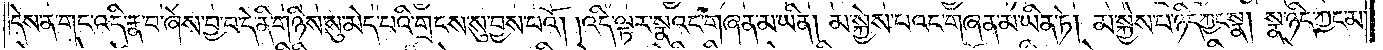དེས་ན། གང་འདི་རྣ་བ་ཞེས་བྱ་བ་དེ་ནི་གཉིས་སུ་མེད་པའི་གྲངས་སུ་བྱས་པའོ། །འདི་ལྟར་སྣའང་གཞན་མ་ཡིན། མ་སྐྱེས་པའང་གཞན་མ་ཡིན་ཏེ། མ་སྐྱེས་པ་ཉིད་ཀྱང་སྣ། སྣ་ཉིད་ཀྱང་མ་
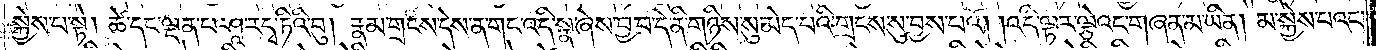སྐྱེས་པ་སྟེ། ཚེ་དང་ལྡན་པ་ཤཱ་ར་དྭ་ཏིའི་བུ། རྣམ་གྲངས་དེས་ན་གང་འདི་སྣ་ཞེས་བྱ་བ་དེ་ནི་གཉིས་སུ་མེད་པའི་གྲངས་སུ་བྱས་པའོ། །འདི་ལྟར་ལྕེའང་གཞན་མ་ཡིན། མ་སྐྱེས་པའང་
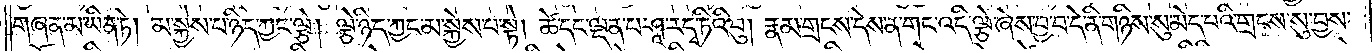གཞན་མ་ཡིན་ཏེ། མ་སྐྱེས་པ་ཉིད་ཀྱང་ལྕེ། ལྕེ་ཉིད་ཀྱང་མ་སྐྱེས་པ་སྟེ། ཚེ་དང་ལྡན་པ་ཤཱ་ར་དྭ་ཏིའི་བུ། རྣམ་གྲངས་དེས་ན་གང་འདི་ལྕེ་ཞེས་བྱ་བ་དེ་ནི་གཉིས་སུ་མེད་པའི་གྲངས་སུ་བྱས་
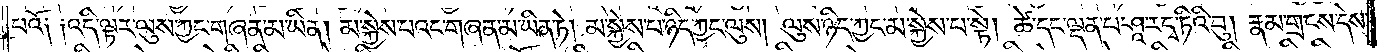པའོ༏ ༏འདི་ལྟར་ལུས་ཀྱང་གཞན་མ་ཡིན། མ་སྐྱེས་པའང་གཞན་མ་ཡིན་ཏེ། མ་སྐྱེས་པ་ཉིད་ཀྱང་ལུས། ལུས་ཉིད་ཀྱང་མ་སྐྱེས་པ་སྟེ། ཚེ་དང་ལྡན་པ་ཤཱ་ར་དྭ་ཏིའི་བུ། རྣམ་གྲངས་དེས་
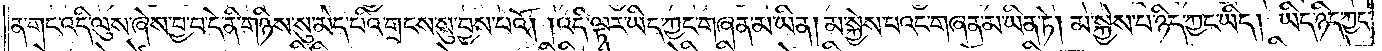ན་གང་འདི་ལུས་ཞེས་བྱ་བ་དེ་ནི་གཉིས་སུ་མེད་པའི་གྲངས་སུ་བྱས་པའོ། །འདི་ལྟར་ཡིད་ཀྱང་གཞན་མ་ཡིན། མ་སྐྱེས་པའང་གཞན་མ་ཡིན་ཏེ། མ་སྐྱེས་པ་ཉིད་ཀྱང་ཡིད། ཡིད་ཉིད་ཀྱང་
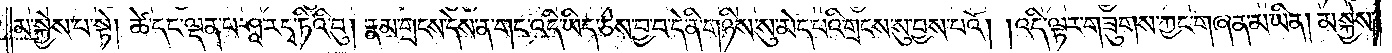མ་སྐྱེས་པ་སྟེ། ཚེ་དང་ལྡན་པ་ཤཱ་ར་དྭ་ཏིའི་བུ། རྣམ་གྲངས་དེས་ན་གང་འདི་ཡིད་ཅེས་བྱ་བ་དེ་ནི་གཉིས་སུ་མེད་པའི་གྲངས་སུ་བྱས་པའོ། །འདི་ལྟར་གཟུགས་ཀྱང་གཞན་མ་ཡིན། མ་སྐྱེས་
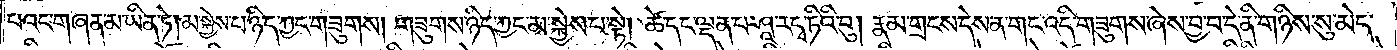པའང་གཞན་མ་ཡིན་ཏེ། མ་སྐྱེས་པ་ཉིད་ཀྱང་གཟུགས། གཟུགས་ཉིད་ཀྱང་མ་སྐྱེས་པ་སྟེ། ཚེ་དང་ལྡན་པ་ཤཱ་ར་དྭ་ཏིའི་བུ། རྣམ་གྲངས་དེས་ན་གང་འདི་གཟུགས་ཞེས་བྱ་བ་དེ་ནི་གཉིས་སུ་མེད་
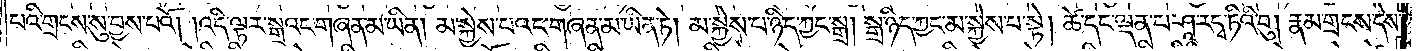པའི་གྲངས་སུ་བྱས་པའོ། འདི་ལྟར་སྒྲའང་གཞན་མ་ཡིན། མ་སྐྱེས་པའང་གཞན་མ་ཡིན་ཏེ། མ་སྐྱེས་པ་ཉིད་ཀྱང་སྒྲ། སྒྲ་ཉིད་ཀྱང་མ་སྐྱེས་པ་སྟེ། ཚེ་དང་ལྡན་པ་ཤཱ་ར་དྭ་ཏིའི་བུ། རྣམ་གྲངས་དེས་
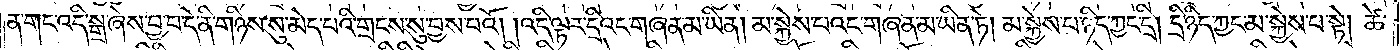ན་གང་འདི་སྒྲ་ཞེས་བྱ་བ་དེ་ནི་གཉིས་སུ་མེད་པའི་གྲངས་སུ་བྱས་པའོ། །འདི་ལྟར་དྲིའང་གཞན་མ་ཡིན། མ་སྐྱེས་པའང་གཞན་མ་ཡིན་ཏེ། མ་སྐྱེས་པ་ཉིད་ཀྱང་དྲི། དྲི་ཉིད་ཀྱང་མ་སྐྱེས་པ་སྟེ། ཚེ་
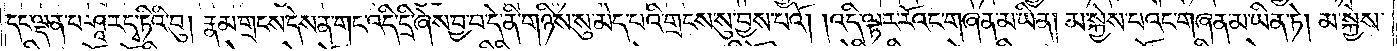དང་ལྡན་པ་ཤཱ་ར་དྭ་ཏིའི་བུ། རྣམ་གྲངས་དེས་ན་གང་འདི་དྲི་ཞེས་བྱ་བ་དེ་ནི་གཉིས་སུ་མེད་པའི་གྲངས་སུ་བྱས་པའོ། །འདི་ལྟར་རོའང་གཞན་མ་ཡིན། མ་སྐྱེས་པའང་གཞན་མ་ཡིན་ཏེ། མ་སྐྱེས་
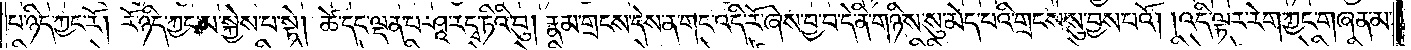པ་ཉིད་ཀྱང་རོ། རོ་ཉིད་ཀྱང་མ་སྐྱེས་པ་སྟེ། ཚེ་དང་ལྡན་པ་ཤཱ་ར་དྭ་ཏིའི་བུ། རྣམ་གྲངས་དེས་ན་གང་འདི་རོ་ཞེས་བྱ་བ་དེ་ནི་གཉིས་སུ་མེད་པའི་གྲངས་སུ་བྱས་པའོ། །འདི་ལྟར་རེག་ཀྱང་གཞན་མ་
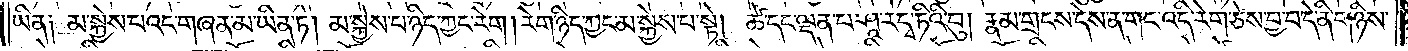ཡིན༏ མ་སྐྱེས་པའང་གཞན་མ་ཡིན་ཏེ། མ་སྐྱེས་པ་ཉིད་ཀྱང་རེག། རེག་ཉིད་ཀྱང་མ་སྐྱེས་པ་སྟེ། ཚེ་དང་ལྡན་པ་ཤཱ་ར་དྭ་ཏིའི་བུ། རྣམ་གྲངས་དེས་ན་གང་འདི་རེག་ཅེས་བྱ་བ་དེ་ནི་གཉིས་
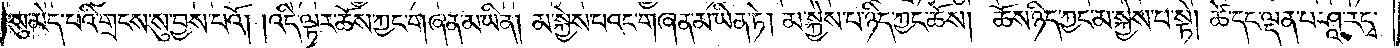སུ་མེད་པའི་གྲངས་སུ་བྱས་པའོ། །འདི་ལྟར་ཆོས་ཀྱང་གཞན་མ་ཡིན། མ་སྐྱེས་པའང་གཞན་མ་ཡིན་ཏེ། མ་སྐྱེས་པ་ཉིད་ཀྱང་ཆོས། ཆོས་ཉིད་ཀྱང་མ་སྐྱེས་པ་སྟེ། ཚེ་དང་ལྡན་པ་ཤཱ་ར་དྭ་
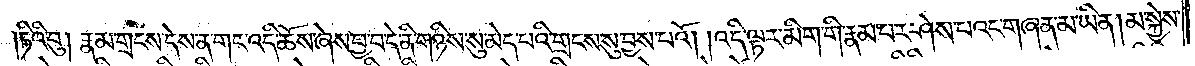ཏིའི་བུ། རྣམ་གྲངས་དེས་ན་གང་འདི་ཆོས་ཞེས་བྱ་བ་དེ་ནི་གཉིས་སུ་མེད་པའི་གྲངས་སུ་བྱས་པའོ། །འདི་ལྟར་མིག་གི་རྣམ་པར་ཤེས་པའང་གཞན་མ་ཡིན། མ་སྐྱེས་
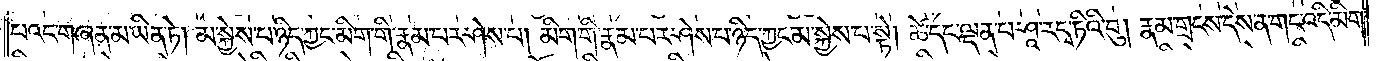པའང་གཞན་མ་ཡིན་ཏེ། མ་སྐྱེས་པ་ཉིད་ཀྱང་མིག་གི་རྣམ་པར་ཤེས་པ། མིག་གི་རྣམ་པར་ཤེས་པ་ཉིད་ཀྱང་མ་སྐྱེས་པ་སྟེ། ཚེ་དང་ལྡན་པ་ཤཱ་ར་དྭ་ཏིའི་བུ། རྣམ་གྲངས་དེས་ན་གང་འདི་མིག་
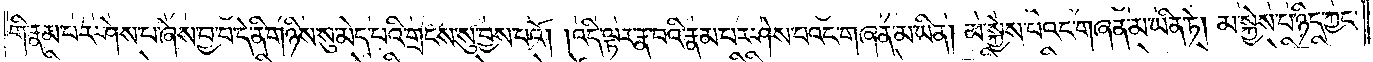གི་རྣམ་པར་ཤེས་པ་ཞེས་བྱ་བ་དེ་ནི་གཉིས་སུ་མེད་པའི་གྲངས་སུ་བྱས་པའོ། །འདི་ལྟར་རྣ་བའི་རྣམ་པར་ཤེས་པའང་གཞན་མ་ཡིན། མ་སྐྱེས་པའང་གཞན་མ་ཡིན་ཏེ། མ་སྐྱེས་པ་ཉིད་ཀྱང་
